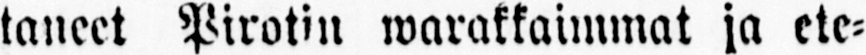taneet Pirotin warakkaimmat ja ete-
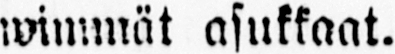wimmät asukkaat.
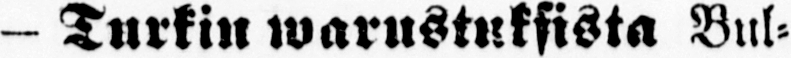- Turkin warnstuksista Bul-
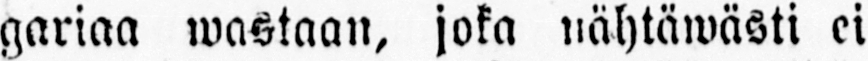gariaa wastaan, joka nähtäwästi ei
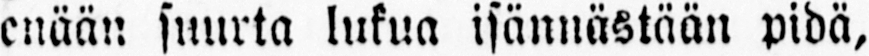enään suurta lukua isännästään pidä,
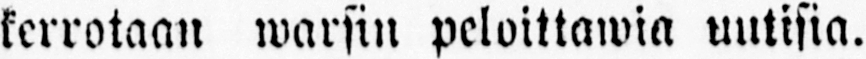kerrotaan warsin peloittawia uutisia.
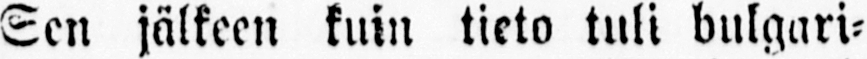Sen jälkeen kuin tieto tuli bulqari-
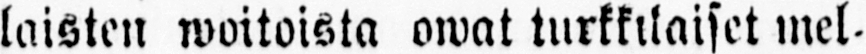laisten woitoista owat turkktkaiset mel-
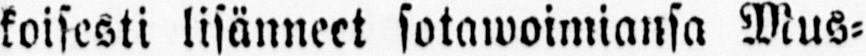koisesti lisänneet sotawoimiansa Mus-
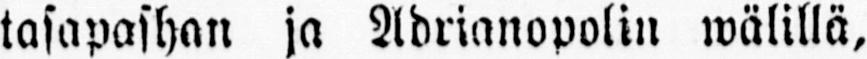tasapashan ja Adrianopolin wälillä,
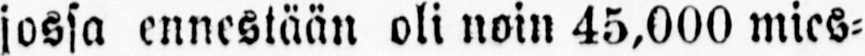jossa ennestään oli noin 45,000 mies-
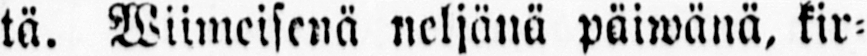tä. Wiimeisenä neljänä päiwänä, kir-
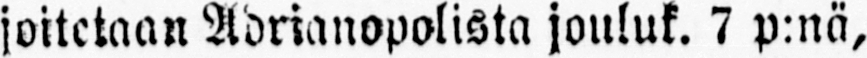joitetaan Adrianopolista jouluk. 7 p:nä,
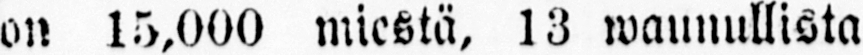on 15,000 miestä, 13 waunullista
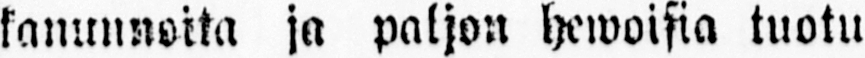kanuunoita ja paljon hewoisia tuotu
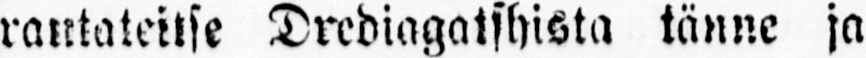rautateitse Drediagatshista tänne ja
